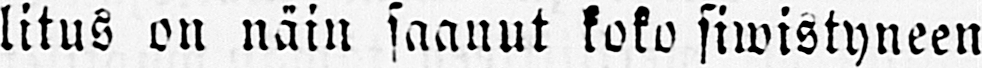litus on näin saanut koko siwistyneen
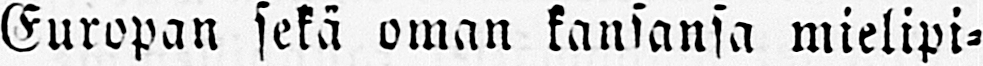Europan sekä oman kaniansa mielipi-
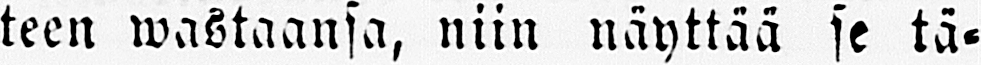teen wastaansa, niin näyttää se tä-
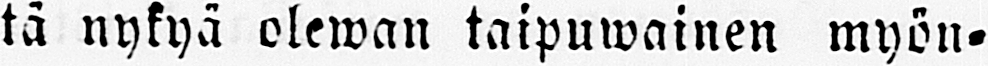tä nykyä olewan taipuwainen myön-
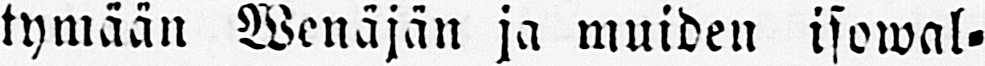tymään Wenäjän ja muiden isowal-
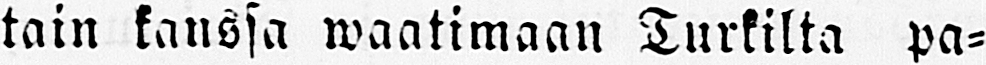tain kanssa waatimaan Turkilta pa-
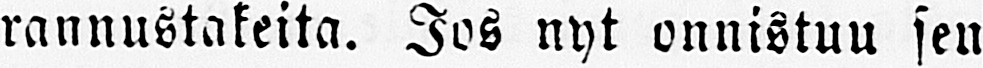rannustakeita. Jos nyt onnistuu sen
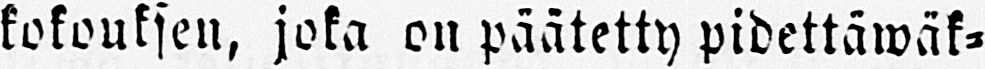kokouksen, joka on päätetty pidettäwäk-
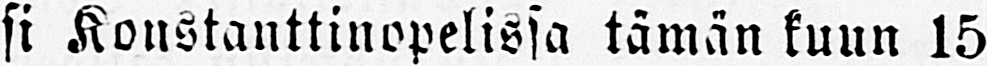si Konstanttinopelissa tämän kuun 15
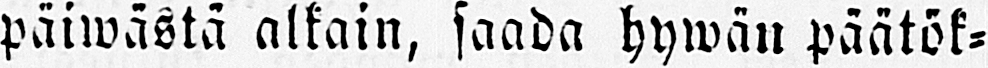päiwästä alkain, saada hywän päätök-
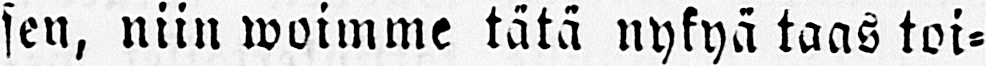sen, niin woimme tätä nykyä taas toi-
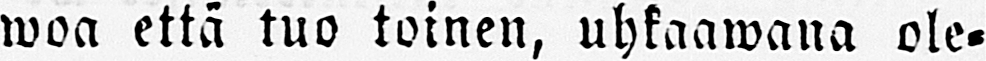woa että tuo toinen, uhkaawana ole-
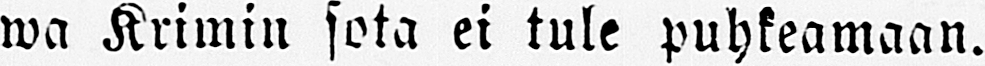wa Krimin sota ei tule puhkeamaan.
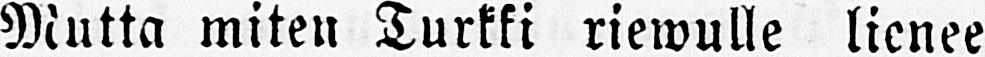Mutta miten Turkki riewulle lienee
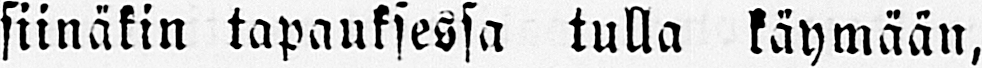siinäkin tapauksessa tulla käymään,
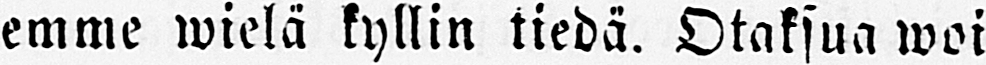emme wielä kyllin tiedä. Otaksua woi
